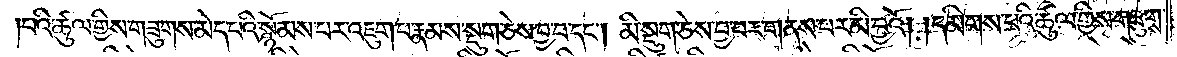པའི་ཚུལ་གྱིས་གཟུགས་མེད་པའི་སྙོམས་པར་འཇུག་པ་རྣམས་སྡུག་ཅེས་བྱ་བ་དང༌། མི་སྡུག་ཅེས་བྱ་བར་གནས་པར་མི་བྱའོ། །དམིགས་པའི་ཚུལ་གྱིས་གཟུགས་
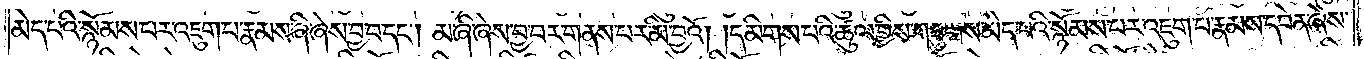མེད་པའི་སྙོམས་པར་འཇུག་པ་རྣམས་ཞི་ཞེས་བྱ་བ་དང༌། མ་ཞི་ཞེས་བྱ་བར་གནས་པར་མི་བྱའོ། །དམིགས་པའི་ཚུལ་གྱིས་གཟུགས་མེད་པའི་སྙོམས་པར་འཇུག་པ་རྣམས་དབེན་ཞེས་
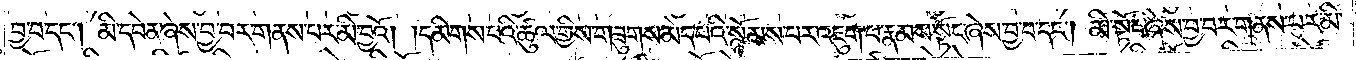བྱ་བ་དང༌། མི་དབེན་ཞེས་བྱ་བར་གནས་པར་མི་བྱའོ། །དམིགས་པའི་ཚུལ་གྱིས་གཟུགས་མེད་པའི་སྙོམས་པར་འཇུག་པ་རྣམས་སྟོང་ཞེས་བྱ་བ་དང༌། མི་སྟོང་ཞེས་བྱ་བར་གནས་པར་མི་
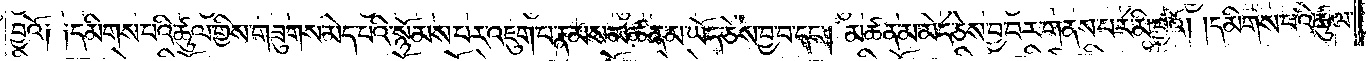བྱའོ༏ ༏མིགས་པའི་ཚུལ་གྱིས་གཟུགས་མེད་པའི་སྙོམས་པར་འཇུག་པ་རྣམས་མཚན་མ་ཡོད་ཅེས་བྱ་བ་དང༌། མཚན་མ་མེད་ཅེས་བྱ་བར་གནས་པར་མི་བྱའོ། །དམིགས་པའི་ཚུལ་
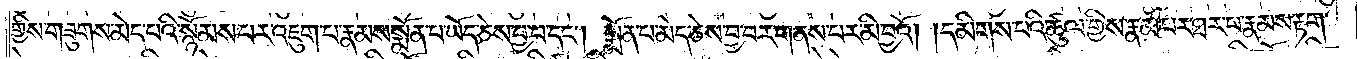གྱིས་གཟུགས་མེད་པའི་སྙོམས་པར་འཇུག་པ་རྣམས་སྨོན་པ་ཡོད་ཅེས་བྱ་བ་དང༌། སྨོན་པ་མེད་ཅེས་བྱ་བར་གནས་པར་མི་བྱའོ། །དམིགས་པའི་ཚུལ་གྱིས་རྣམ་པར་ཐར་པ་རྣམས་རྟག་
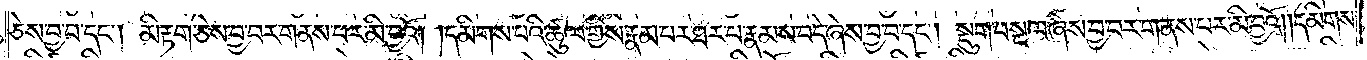ཅེས་བྱ་བ་དང༌། མི་རྟག་ཅེས་བྱ་བར་གནས་པར་མི་བྱའོ། །དམིགས་པའི་ཚུལ་གྱིས་རྣམ་པར་ཐར་པ་རྣམས་བདེ་ཞེས་བྱ་བ་དང༌། སྡུག་བསྔལ་ཞེས་བྱ་བར་གནས་པར་མི་བྱའོ། །དམིགས་
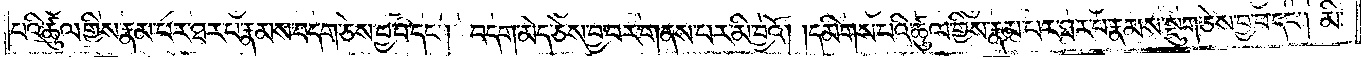པའི་ཚུལ་གྱིས་རྣམ་པར་ཐར་པ་རྣམས་བདག་ཅེས་བྱ་བ་དང༌། བདག་མེད་ཅེས་བྱ་བར་གནས་པར་མི་བྱའོ། །དམིགས་པའི་ཚུལ་གྱིས་རྣམ་པར་ཐར་པ་རྣམས་སྡུག་ཅེས་བྱ་བ་དང༌། མི་
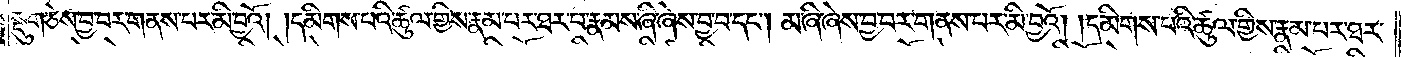སྡུག་ཅེས་བྱ་བར་གནས་པར་མི་བྱའོ། །དམིགས་པའི་ཚུལ་གྱིས་རྣམ་པར་ཐར་པ་རྣམས་ཞི་ཞེས་བྱ་བ་དང༌། མ་ཞི་ཞེས་བྱ་བར་གནས་པར་མི་བྱའོ། །དམིགས་པའི་ཚུལ་གྱིས་རྣམ་པར་ཐར་
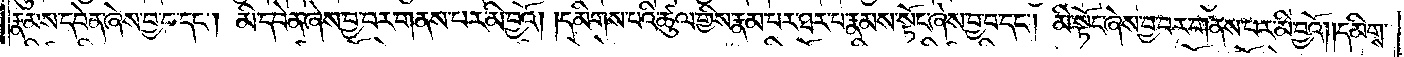རྣམས་དབེན་ཞེས་བྱ་བ་དང༌། མི་དབེན་ཞེས་བྱ་བར་གནས་པར་མི་བྱའོ། །དམིགས་པའི་ཚུལ་གྱིས་རྣམ་པར་ཐར་པ་རྣམས་སྟོང་ཞེས་བྱ་བ་དང༌། མི་སྟོང་ཞེས་བྱ་བར་གནས་པར་མི་བྱའོ། །དམིགས་
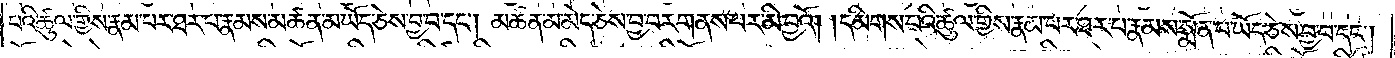པའི་ཚུལ་གྱིས་རྣམ་པར་ཐར་པ་རྣམས་མཚན་མ་ཡོད་ཅེས་བྱ་བ་དང༌། མཚན་མ་མེད་ཅེས་བྱ་བར་གནས་པར་མི་བྱའོ། །དམིགས་པའི་ཚུལ་གྱིས་རྣམ་པར་ཐར་པ་རྣམས་སྨོན་པ་ཡོད་ཅེས་བྱ་བ་དང༌།
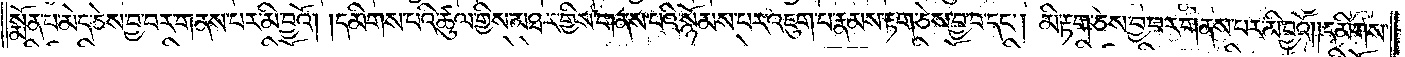སྨོན་པ་མེད་ཅེས་བྱ་བར་གནས་པར་མི་བྱའོ། །དམིགས་པའི་ཚུལ་གྱིས་མཐར་གྱིས་གནས་པའི་སྙོམས་པར་འཇུག་པ་རྣམས་རྟག་ཅེས་བྱ་བ་དང༌། མི་རྟག་ཅེས་བྱ་བར་གནས་པར་མི་བྱའོ། །དམིགས་
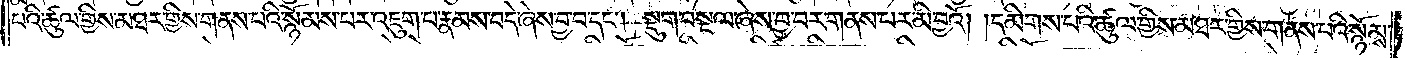པའི་ཚུལ་གྱིས་མཐར་གྱིས་གནས་པའི་སྙོམས་པར་འཇུག་པ་རྣམས་བདེ་ཞེས་བྱ་བ་དང༌། སྡུག་བསྔལ་ཞེས་བྱ་བར་གནས་པར་མི་བྱའོ། །དམིགས་པའི་ཚུལ་གྱིས་མཐར་གྱིས་གནས་པའི་སྙོམས་
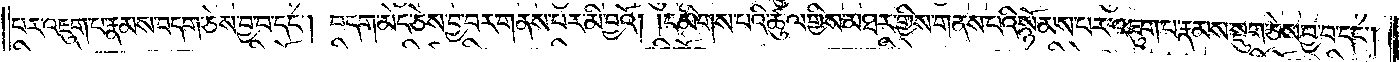པར་འཇུག་པ་རྣམས་བདག་ཅེས་བྱ་བ་དང༌། བདག་མེད་ཅེས་བྱ་བར་གནས་པར་མི་བྱའོ། །དམིགས་པའི་ཚུལ་གྱིས་མཐར་གྱིས་གནས་པའི་སྙོམས་པར་འཇུག་པ་རྣམས་སྡུག་ཅེས་བྱ་བ་དང༌།
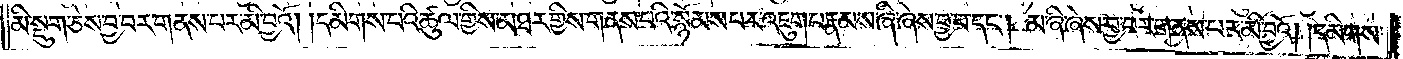མི་སྡུག་ཅེས་བྱ་བར་གནས་པར་མི་བྱའོ། །དམིགས་པའི་ཚུལ་གྱིས་མཐར་གྱིས་གནས་པའི་སྙོམས་པར་འཇུག་པ་རྣམས་ཞི་ཞེས་བྱ་བ་དང༌། མ་ཞི་ཞེས་བྱ་བར་གནས་པར་མི་བྱའོ། །དམིགས་
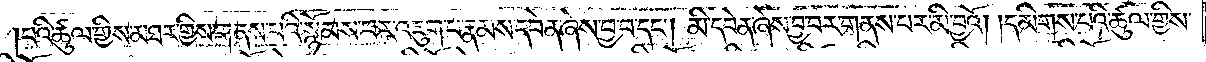པའི་ཚུལ་གྱིས་མཐར་གྱིས་གནས་པའི་སྙོམས་པར་འཇུག་པ་རྣམས་དབེན་ཞེས་བྱ་བ་དང༌། མི་དབེན་ཞེས་བྱ་བར་གནས་པར་མི་བྱའོ། །དམིགས་པའི་ཚུལ་གྱིས་
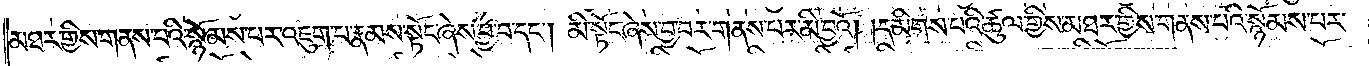མཐར་གྱིས་གནས་པའི་སྙོམས་པར་འཇུག་པ་རྣམས་སྟོང་ཞེས་བྱ་བ་དང༌། མི་སྟོང་ཞེས་བྱ་བར་གནས་པར་མི་བྱའོ། །དམིགས་པའི་ཚུལ་གྱིས་མཐར་གྱིས་གནས་པའི་སྙོམས་པར་
